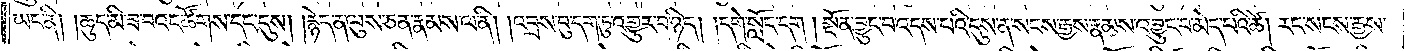ཡང་ནི། །ཆུད་མི་ཟ་བའང་ཚོགས་དང་དུས། །རྙེད་ན་ལུས་ཅན་རྣམས་ལ་ནི། །འབྲས་བུ་དག་ཏུ་འགྱུར་བ་ཉིད། །དགེ་སློང་དག །སྔོན་བྱུང་བ་འདས་པའི་དུས་ན་སངས་རྒྱས་རྣམས་འབྱུང་བ་མེད་པའི་ཚེ། རང་སངས་རྒྱས་
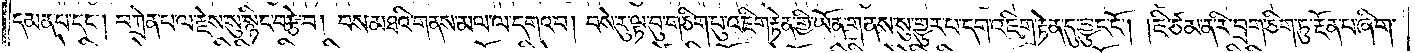དམན་པ་དང༌། བཀྲེན་པ་ལ་རྗེས་སུ་སྙིང་བརྩེ་བ། བས་མཐའི་གནས་མལ་ལ་དགའ་བ། བསེ་རུ་ལྟ་བུ་གཅིག་པུ་འཇིག་རྟེན་གྱི་ཡོན་གནས་སུ་གྱུར་པ་དག་འཇིག་རྟེན་དུ་བྱུང་ངོ༌། །ཇི་ཙམ་ན་རི་བྲག་ཅིག་ཏུ་རྔོན་པ་ཞིག་
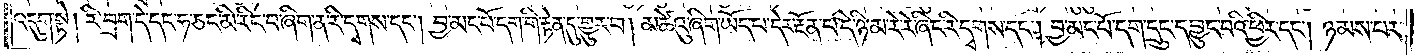འདུག་སྟེ། རི་བྲག་དེ་དང་ཧ་ཅང་མི་རིང་བ་ཞིག་ན་རི་དྭགས་དང༌། བྱ་མང་པོ་དག་གི་རྟེན་དུ་གྱུར་པ། མཚེའུ་ཞིག་ཡོད་པ་དེར་རྔོན་པ་དེ་ཉི་མ་རེ་རེ་ཞིང་རི་དྭགས་དང༌། བྱ་མང་པོ་དག་དྲུང་དབྱུང་བའི་ཕྱིར་དང༌། ཉམས་པར་
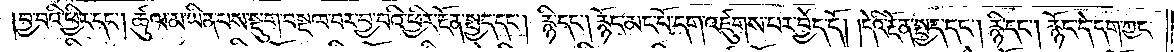བྱ་བའི་ཕྱིར་དང༌། ཚུལ་མ་ཡིན་པས་སྡུག་བསྔལ་བར་བྱ་བའི་ཕྱིར་རྔོན་སྤྱད་དང༌། རྙི་དང༌། རྙོང་མང་པོ་དག་འཛུགས་པར་བྱེད་དོ། །དེའི་རྔོན་སྤྱད་དང༌། རྙི་དང༌། རྙོང་དེ་དག་ཀྱང་
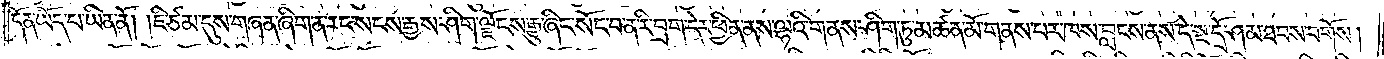དོན་ཡོད་པ་ཡིན་ནོ། །ཇི་ཙམ་དུས་གཞན་ཞིག་ན་རང་སངས་རྒྱས་ཤིག་ལྗོངས་རྒྱུ་ཞིང་སོང་བ་ན་རི་བྲག་དེར་ཕྱིན་ནས་ལྷའི་གནས་ཤིག་ཏུ་མཚན་མོ་གནས་པར་ཁས་བླངས་ནས་དེ་སྔ་དྲོ་ཤམ་ཐབས་བགོས།
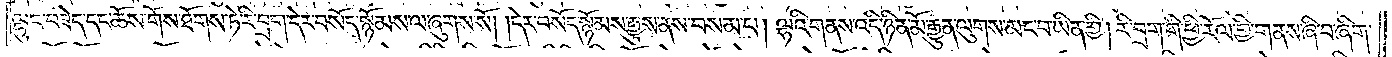ལྷུང་བཟེད་དང་ཆོས་གོས་ཐོགས་ཏེ་རི་བྲག་དེར་བསོད་སྙོམས་ལ་ཞུགས་སོ། །དེར་བསོད་སྙོམས་རྒྱུས་ནས་བསམ་པ། ལྷའི་གནས་འདི་ཉིན་མོ་རྒྱུན་ལུགས་མང་བ་ཡིན་གྱི། རི་བྲག་གི་ཕྱི་རོལ་གྱི་གནས་ཞི་བ་ཞིག་
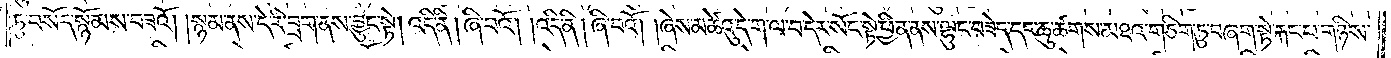ཏུ་བསོད་སྙོམས་བཟའོ། །སྙམ་ནས་དེ་རི་བྲག་ནས་བྱུང་སྟེ། འདི་ནི། ཞི་བའོ། །འདི་ནི། ཞི་བའོ། །ཞེས་མཚེའུ་དེ་ག་ལ་བ་དེར་སོང་སྟེ་ཕྱིན་ནས་ལྷུང་བཟེད་དང་ཆུ་ཚགས་མཐའ་གཅིག་ཏུ་བཞག་སྟེ་རྐང་པ་གཉིས་
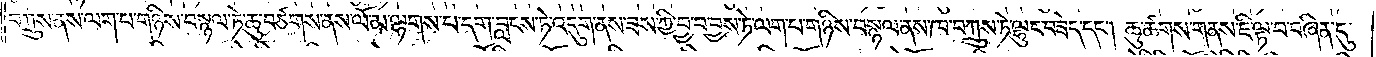བཀྲུས་ནས་ལག་པ་གཉིས་བསྙལ་ཏེ་ཆུ་བཙགས་ནས་ལོ་མ་ལྷགས་པ་དག་བླངས་ཏེ་འདུག་ནས་ཟས་ཀྱི་བྱ་བ་བྱས་ཏེ་ལག་པ་གཉིས་བསྙལ་ནས་ཁ་བཀྲུས་ཏེ་ལྷུང་བཟེད་དང༌། ཆུ་ཚགས་གནས་ཇི་ལྟ་བ་བཞིན་དུ་
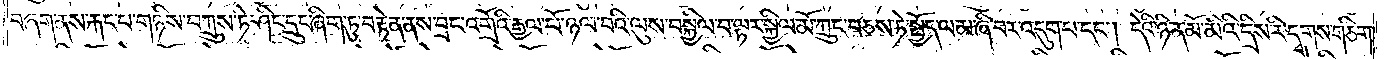བཞག་ནས་རྐང་པ་གཉིས་བཀྲུས་ཏེ་ཤིང་དྲུང་ཞིག་ཏུ་བརྟེན་ནས་བྲང་འགྲོའི་རྒྱལ་པོ་ཉལ་བའི་ལུས་བསྐྱིལ་བ་ལྟར་སྐྱིལ་མོ་ཀྲུང་བཅས་ཏེ་སྤྱོད་ལམ་ཞི་བར་འདུག་པ་དང༌། དེའི་ཉིན་མོ་མིའི་དྲིས་རི་དྭགས་གཅིག་
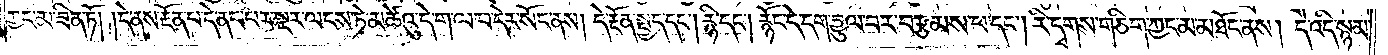ཀྱང་མ་ཟིན་ཏོ། །དེ་ནས་རྔོན་པ་དེ་ནང་པར་སྔར་ལངས་ཏེ་མཚེའུ་དེ་ག་ལ་བ་དེར་སོང་ནས། དེ་རྔོན་སྤྱད་དང༌། རྙི་དང༌། རྙོང་དེ་དག་བྱུལ་བར་བརྩམས་པ་དང༌། རི་དྭགས་གཅིག་ཀྱང་མ་མཐོང་ནས། དེ་འདི་སྙམ་
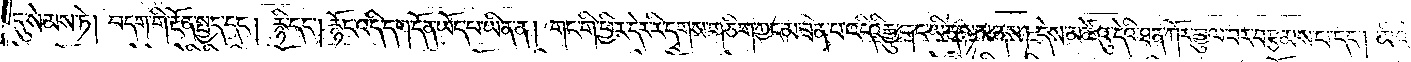དུ་སེམས་ཏེ། བདག་གི་རྔོན་སྤྱད་དང༌། རྙི་དང༌། རྙོང་འདི་དག་དོན་ཡོད་པ་ཡིན་ན། གང་གི་ཕྱིར་དེར་རི་དྭགས་གཅིག་ཀྱང་མ་ཟིན་པ་འདིའི་རྒྱུ་གང་ཡིན་སྙམ་ནས། དེས་མཚེའུ་དེའི་ཐན་ཀོར་བྱུལ་བར་བརྩམས་པ་དང༌། མིའི་
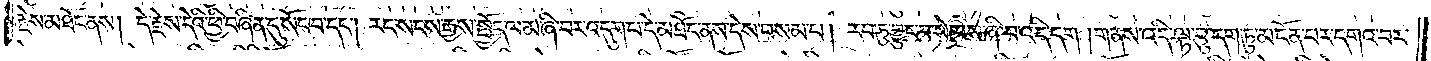རྗེས་མཐོང་ནས། དེ་རྗེས་དེའི་ཕྱི་བཞིན་དུ་སོང་བ་དང༌། རང་སངས་རྒྱས་སྤྱོད་ལམ་ཞི་བར་འདུག་པ་དེ་མཐོང་ནས་དེས་བསམ་པ། རབ་ཏུ་བྱུང་བ་སེམས་ཞི་བ་འདི་དག །གནས་འདི་ལྟ་བུ་དག་ཏུ་མངོན་པར་དགའ་བར་
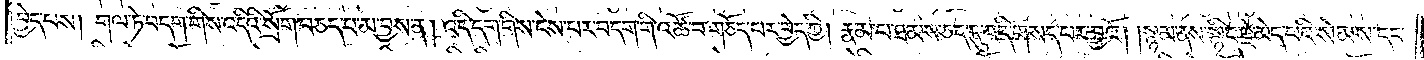བྱེད་པས། གལ་ཏེ་བདག་གིས་འདིའི་སྲོག་བཅད་པ་མ་བྱས་ན། འདི་དག་གིས་ངེས་པར་བདག་གི་འཚོ་བ་གཅོད་པར་བྱེད་ཀྱི། རྣམ་པ་ཐམས་ཅད་དུ་འདི་གསད་པར་བྱའོ། །སྙམ་ནས་སྙིང་རྗེ་མེད་པའི་སེམས་དང་
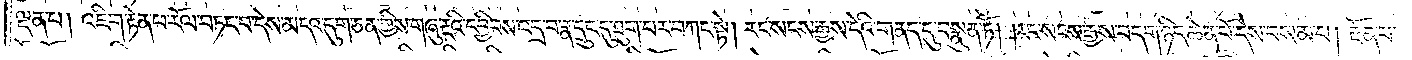ལྡན་པ། འཇིག་རྟེན་ཕ་རོལ་བཏང་བ་དེས་མདའ་དུག་ཅན་གྱིས་གཞུ་རྔའི་དབྱིབས་འདྲ་བ་རྣ་དྲུང་དུ་ཐུག་པར་བཀང་སྟེ། རང་སངས་རྒྱས་དེའི་གནད་དུ་བསྣུན་ཏོ། །རང་སངས་རྒྱས་བདག་ཉིད་ཆེན་པོ་དེས་བསམ་པ། རྔོན་པ་
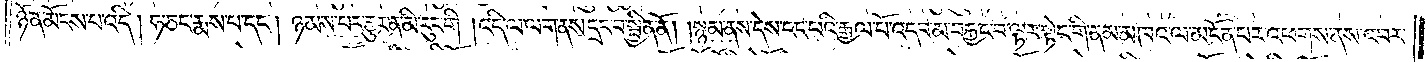ཉོན་མོངས་པ་འདི། ཧ་ཅང་རྨས་པ་དང༌། ཉམས་པར་གྱུར་ན་མི་རུང་གི །འདི་ལ་ལ་གནས་དྲང་བ་སྦྱིན་ནོ། །སྙམ་ནས་དེས་ངང་པའི་རྒྱལ་པོ་འདབ་མ་བརྐྱང་བ་ལྟར་སྟེང་གི་ནམ་མཁའ་ལ་མངོན་པར་འཕགས་ནས་འབར་
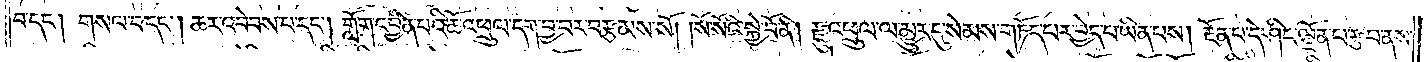བ་དང༌། གསལ་བ་དང༌། ཆར་འབེབས་པ་དང༌། གློག་འབྱིན་པའི་ཆོ་འཕྲུལ་དག་བྱ་བར་བརྩམས་སོ། །སོ་སོའི་སྐྱེ་བོ་ནི། རྫུ་འཕྲུལ་ལ་མྱུར་དུ་སེམས་གཏོད་པར་བྱེད་པ་ཡིན་པས། རྔོན་པ་དེ་ཤིང་ལྗོན་པ་རྩ་བ་ནས་
